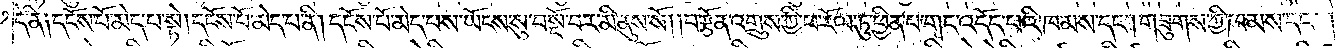དེ་ནི༑ དངོས་པོ་མེད་པ་སྟེ། དངོས་པོ་མེད་པ་ནི། དངོས་པོ་མེད་པས་ཡོངས་སུ་བསྔོ་བར་མི་ནུས་སོ། །བརྩོན་འགྲུས་ཀྱི་ཕ་རོལ་ཏུ་ཕྱིན་པ་གང་འདོད་པའི་ཁམས་དང༌། གཟུགས་ཀྱི་ཁམས་དང༌།
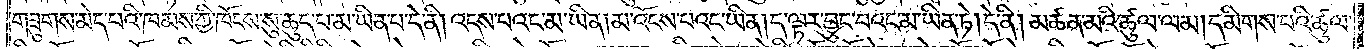གཟུགས་མེད་པའི་ཁམས་ཀྱི་ཁོངས་སུ་ཆུད་པ་མ་ཡིན་པ་དེ་ནི། འདས་པའང་མ་ཡིན། མ་འོངས་པའང་ཡིན། ད་ལྟར་བྱུང་བའང་མ་ཡིན་ཏེ། དེ་ནི། མཚན་མའི་ཚུལ་ལམ། དམིགས་པའི་ཚུལ་
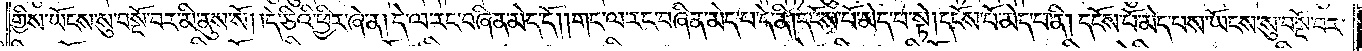གྱིས་ཡོངས་སུ་བསྔོ་བར་མི་ནུས་སོ། །དེ་ཅིའི་ཕྱིར་ཞེ་ན། དེ་ལ་རང་བཞིན་མེད་དོ། །གང་ལ་རང་བཞིན་མེད་པ་དེ་ནི། དངོས་པོ་མེད་པ་སྟེ། དངོས་པོ་མེད་པ་ནི། དངོས་པོ་མེད་པས་ཡོངས་སུ་བསྔོ་བར་
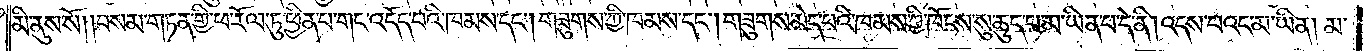མི་ནུས་སོ། །བསམ་གཏན་གྱི་ཕ་རོལ་ཏུ་ཕྱིན་པ་གང་འདོད་པའི་ཁམས་དང༌། གཟུགས་ཀྱི་ཁམས་དང༌། གཟུགས་མེད་པའི་ཁམས་ཀྱི་ཁོངས་སུ་ཆུད་པ་མ་ཡིན་པ་དེ་ནི། འདས་པའང་མ་ཡིན། མ་
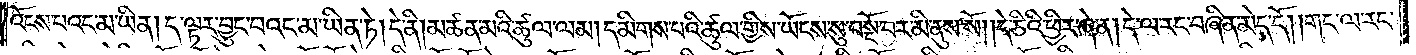འོངས་པའང་མ་ཡིན། ད་ལྟར་བྱུང་བའང་མ་ཡིན་ཏེ། དེ་ནི། མཚན་མའི་ཚུལ་ལམ། དམིགས་པའི་ཚུལ་གྱིས་ཡོངས་སུ་བསྔོ་བར་མི་ནུས་སོ། །དེ་ཅིའི་ཕྱིར་ཞེ་ན། དེ་ལ་རང་བཞིན་མེད་དོ། །གང་ལ་རང་
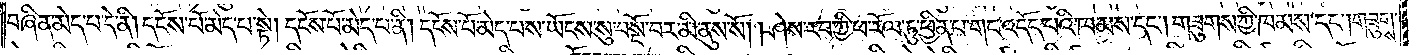བཞིན་མེད་པ་དེ་ནི། དངོས་པོ་མེད་པ་སྟེ། དངོས་པོ་མེད་པ་ནི། དངོས་པོ་མེད་པས་ཡོངས་སུ་བསྔོ་བར་མི་ནུས་སོ། །ཤེས་རབ་ཀྱི་ཕ་རོལ་ཏུ་ཕྱིན་པ་གང་འདོད་པའི་ཁམས་དང༌། གཟུགས་ཀྱི་ཁམས་དང༌། གཟུགས་
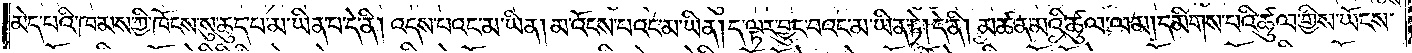མེད་པའི་ཁམས་ཀྱི་ཁོངས་སུ་ཆུད་པ་མ་ཡིན་པ་དེ་ནི། འདས་པའང་མ་ཡིན། མ་འོངས་པའང་མ་ཡིན། ད་ལྟར་བྱུང་བའང་མ་ཡིན་ཏེ། དེ་ནི། མཚན་མའི་ཚུལ་ལམ། དམིགས་པའི་ཚུལ་གྱིས་ཡོངས་
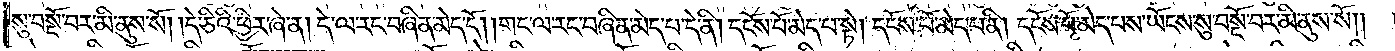སུ་བསྔོ་བར་མི་ནུས་སོ། །དེ་ཅིའི་ཕྱིར་ཞེ་ན། དེ་ལ་རང་བཞིན་མེད་དོ། །གང་ལ་རང་བཞིན་མེད་པ་དེ་ནི། དངོས་པོ་མེད་པ་སྟེ། དངོས་པོ་མེད་པ་ནི། དངོས་པོ་མེད་པས་ཡོངས་སུ་བསྔོ་བར་མི་ནུས་སོ༎
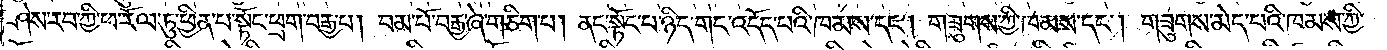ཤེས་རབ་ཀྱི་ཕ་རོལ་ཏུ་ཕྱིན་པ་སྟོང་ཕྲག་བརྒྱ་པ། །བམ་པོ་བརྒྱ་ཞེ་གཅིག་པ། ནང་སྟོང་པ་ཉིད་གང་འདོད་པའི་ཁམས་དང༌། གཟུགས་ཀྱི་ཁམས་དང༌། གཟུགས་མེད་པའི་ཁམས་ཀྱི་
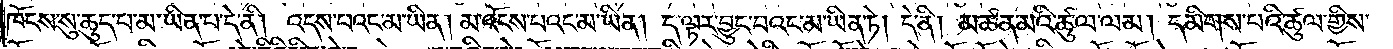ཁོངས་སུ་ཆུད་པ་མ་ཡིན་པ་དེ་ནི། འདས་པའང་མ་ཡིན། མ་འོངས་པའང་མ་ཡིན། ད་ལྟར་བྱུང་བའང་མ་ཡིན་ཏེ། དེ་ནི། མཚན་མའི་ཚུལ་ལམ། དམིགས་པའི་ཚུལ་གྱིས་
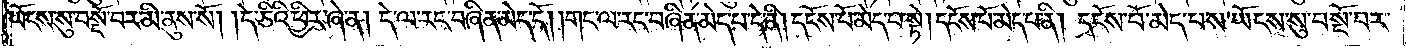ཡོངས་སུ་བསྔོ་བར་མི་ནུས་སོ། །དེ་ཅིའི་ཕྱིར་ཞེ་ན། དེ་ལ་རང་བཞིན་མེད་དོ། །གང་ལ་རང་བཞིན་མེད་པ་དེ་ནི། དངོས་པོ་མེད་པ་སྟེ། དངོས་པོ་མེད་པ་ནི། དངོས་པོ་མེད་པས་ཡོངས་སུ་བསྔོ་བར་
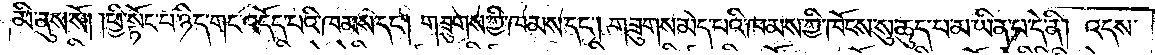མི་ནུས་སོ། །ཕྱི་སྟོང་པ་ཉིད་གང་འདོད་པའི་ཁམས་དང༌། གཟུགས་ཀྱི་ཁམས་དང༌། གཟུགས་མེད་པའི་ཁམས་ཀྱི་ཁོངས་སུ་ཆུད་པ་མ་ཡིན་པ་དེ་ནི། འདས་
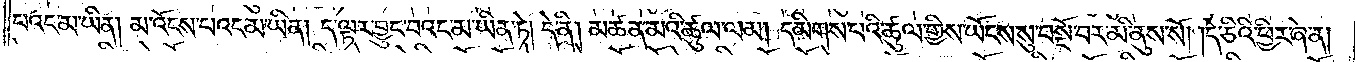པའང་མ་ཡིན། མ་འོངས་པའང་མ་ཡིན། ད་ལྟར་བྱུང་བའང་མ་ཡིན་ཏེ། དེ་ནི། མཚན་མའི་ཚུལ་ལམ། དམིགས་པའི་ཚུལ་གྱིས་ཡོངས་སུ་བསྔོ་བར་མི་ནུས་སོ། །དེ་ཅིའི་ཕྱིར་ཞེ་ན།
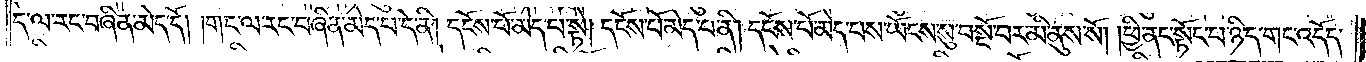དེ་ལ་རང་བཞིན་མེད་དོ། །གང་ལ་རང་བཞིན་མེད་པ་དེ་ནི། དངོས་པོ་མེད་པ་སྟེ། དངོས་པོ་མེད་པ་ནི། དངོས་པོ་མེད་པས་ཡོངས་སུ་བསྔོ་བར་མི་ནུས་སོ། །ཕྱི་ནང་སྟོང་པ་ཉིད་གང་འདོད་
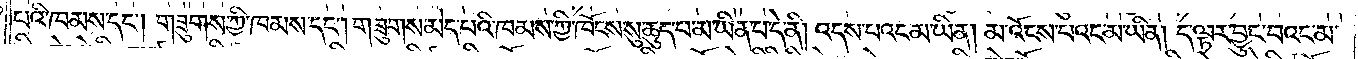པའི་ཁམས་དང༌། གཟུགས་ཀྱི་ཁམས་དང༌། གཟུགས་མེད་པའི་ཁམས་ཀྱི་ཁོངས་སུ་ཆུད་པ་མ་ཡིན་པ་དེ་ནི། འདས་པའང་མ་ཡིན། མ་འོངས་པའང་མ་ཡིན། ད་ལྟར་བྱུང་བའང་མ་
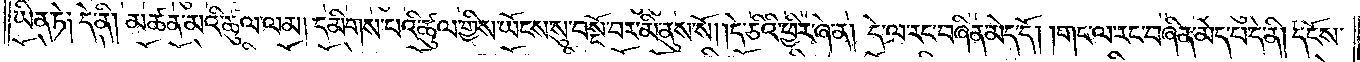ཡིན་ཏེ༑ དེ་ནི། མཚན་མའི་ཚུལ་ལམ། དམིགས་པའི་ཚུལ་གྱིས་ཡོངས་སུ་བསྔོ་བར་མི་ནུས་སོ། །དེ་ཅིའི་ཕྱིར་ཞེ་ན། དེ་ལ་རང་བཞིན་མེད་དོ། །གང་ལ་རང་བཞིན་མེད་པ་དེ་ནི། དངོས་
